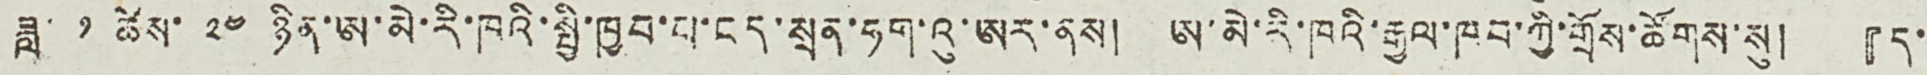ཟླ་ ༡ ཚེས་ ༢༤ ཉིན་ཨ་མེ་རི་ཁའི་སྤྱི་ཁྱབ་པ་ངད་སྲན་ཧག་འུ་ཨར་ནས། ཨ་མེ་རི་ཁའི་རྒྱལ་ཁབ་ཀྱི་གྲོས་ཚོགས་སུ། 『ད་
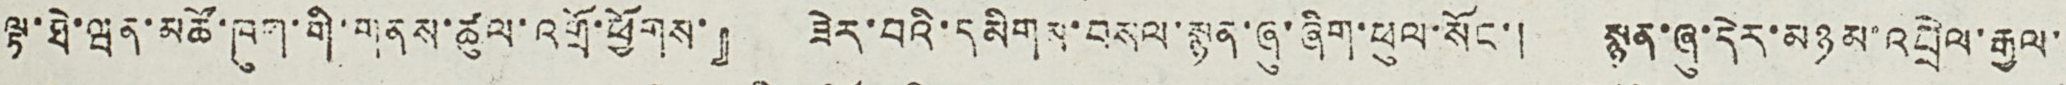ལྟ་ཐེ་ཝན་མཚོ་ཁུག་གི་གནས་ཚུལ་འགྲོ་ཕྱོགས་』 ཟེར་བའི་དམིགས་བསལ་སྙན་ཞུ་ཞིག་ཕུལ་སོང་། སྙན་ཞུ་དེར་མཉམ་འབྲེལ་རྒྱལ་
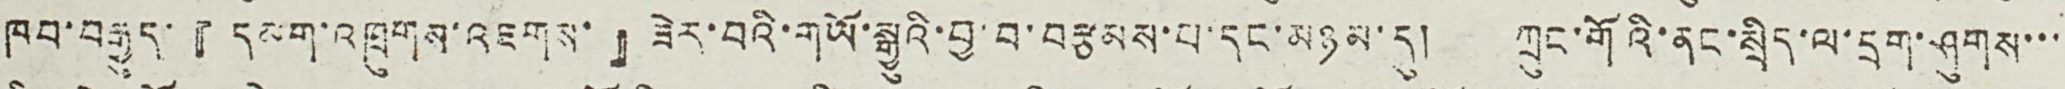ཁབ་བརྒྱུད་『དམག་འཁྲུགས་འཇགས་』ཟེར་བའི་གཡོ་སྒྱུའི་བྱ་བ་བརྩམས་པ་དང་མཉམ་དུ། ཀྲུང་གོའི་ནང་སྲིད་ལ་དྲག་ཤུགས་་་
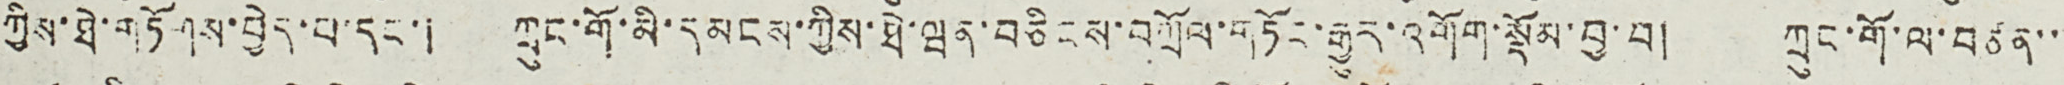ཀྱིས་ཐེ་གཏོགས་བྱེད་པ་དང་། ཀྲུང་གོ་མི་དམངས་ཀྱིས་ཐེ་ཝན་བཅིངས་བཀྲོལ་གཏོང་རྒྱུར་འགོག་སྡོམ་བྱ་བ། ཀྲུང་གོ་ལ་བཙན་་
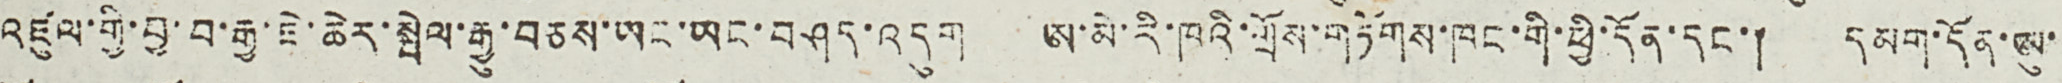འཛུལ་གྱི་བྱ་བ་རྒྱ་ཇེ་ཆེར་སྦེལ་རྒྱུ་བཅས་ཡང་ཡང་བཤད་འདུག ཨ་མེ་རི་ཁའི་གྲོས་གཏོགས་ཁང་གི་ཕྱི་དོན་དང་། དམག་དོན་ཨུ་
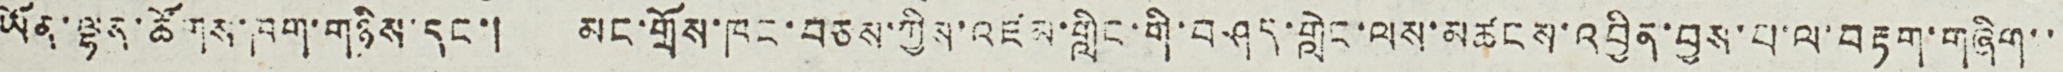ཡོན་ལྷན་ཚོགས་ཁག་གཉིས་དང་། མང་གྲོས་ཁང་བཅས་ཀྱིས་འཛམ་གླིང་གི་བཤད་གླེང་ལས་མཚངས་འབྱིན་བྱས་པ་ལ་བརྟག་གཞིག་་
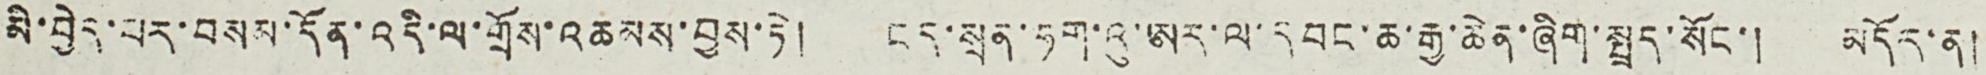མི་བྱེད་པར་བསམ་དོན་འདི་ལ་གྲོས་འཆམས་བྱས་ཏེ། ངད་སྲན་ཧག་འུ་ཨར་ལ་དབང་ཆ་རྒྱ་ཆེན་ཞིག་སྤྲད་སོང་། མདོར་ན།
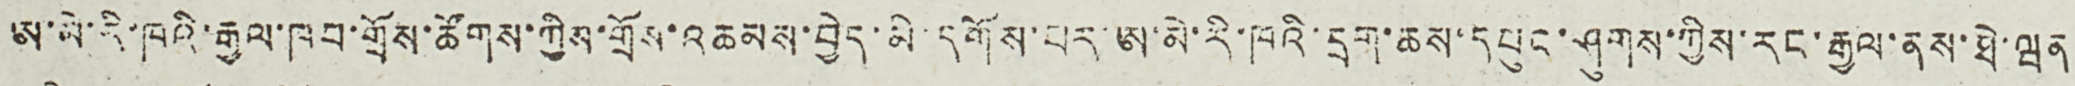ཨ་མེ་རི་ཁའི་རྒྱལ་ཁབ་གྲོས་ཚོགས་ཀྱིས་གྲོས་འཆམས་བྱེད་མི་དགོས་པར་ཨ་མེ་རི་ཁའི་དྲག་ཆས་དཔུང་ཤུགས་ཀྱིས་རང་རྒྱལ་ནས་ཐེ་ཝན
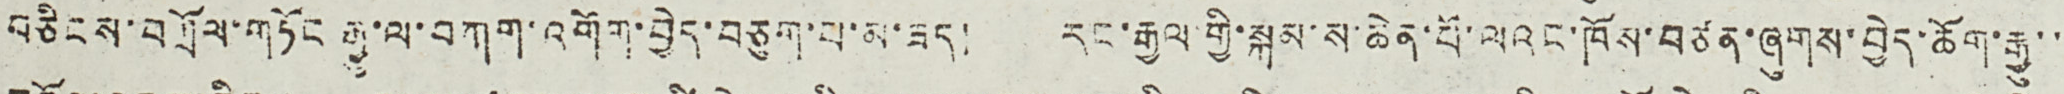བཅིངས་བཀྲོལ་གཏོང་རྒྱུ་ལ་བཀག་འགོག་བྱེད་བཅུག་པ་མ་ཟད། རང་རྒྱལ་གྱི་སྐམ་ས་ཆེན་པོ་ལའང་ཁོས་བཙན་ཞུགས་བྱེད་ཆོག་རྒྱུ་་
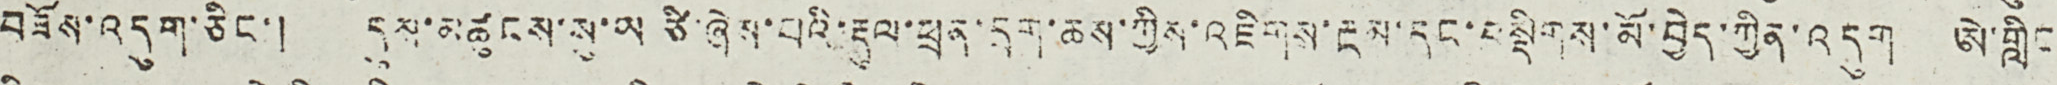བཟོས་འདུག་ཅིང་། དུས་མཚུངས་སུ་ཡ ཙི་ཞེས་པའི་རྡུལ་ཕྲན་དྲག་ཆས་ཀྱིས་འཇིགས་རྔམ་དང་བསྡིགས་མོ་བྱེད་ཀྱིན་འདུག ཨེ་གླིང
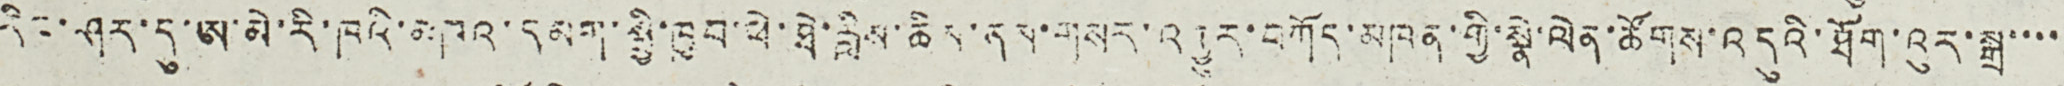རིང་ཤར་དུ་ཨ་མེ་རི་ཁའི་མཁའ་དམག་སྤྱི་ཁྱབ་ཕེ་ཐེ་རླིས་ཆིས་ནས་གསར་འགྱུར་བཀོད་མཁན་གྱི་སྣེ་ལེན་ཚོགས་འདུའི་ཐོག་འུར་སྒྲ་་་་
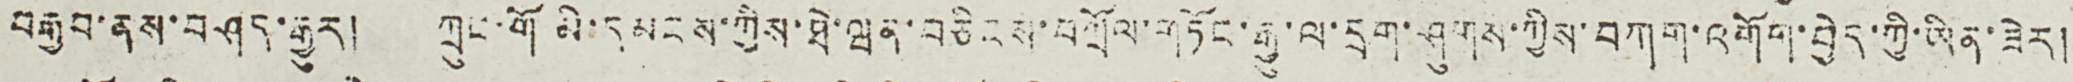བརྒྱབ་ནས་བཤད་རྒྱུར། ཀྲུང་གོ་མི་དམངས་ཀྱིས་ཐེ་ཝན་བཅིངས་བཀྲོལ་གཏོང་རྒྱུ་ལ་དྲག་ཤུགས་ཀྱིས་བཀག་འགོག་བྱེད་ཀྱི་ཡིན་ཟེར།
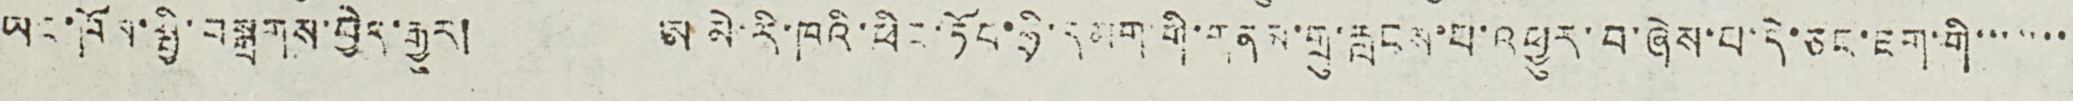ཡང་ཁོས་སྤྱི་བསྒྲགས་བྱེད་རྒྱུར། ཨ མེ་རི་ཁའི་ཕིབ་ཏོབ་ཧྲི་དམག་གི་གནས་གྲུ་རླངས་པ་འཕྱུར་བ་ཞེས་པ་དེ་ཅང་ཇག་གི་་་་་་་
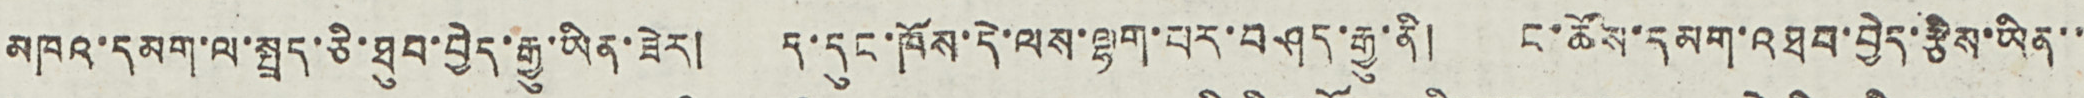མཁའ་དམག་ལ་སྤྲད་ཅི་ཐུབ་བྱེད་རྒྱུ་ཡོན་ཟེར། ད་དུང་ཁོས་དེ་ལས་ལྷག་པར་བཤད་རྒྱུ་ནི།  ང་ཚོས་དམག་འཐབ་བྱེད་རྩིས་ཡིན་་
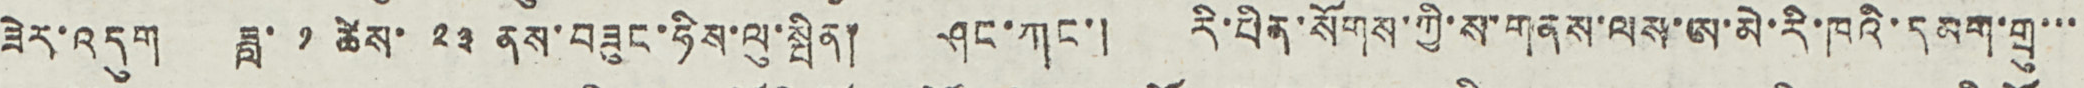ཟེར་འདུག ཟླ་ ༡ ཚེས་ ༢༣ ནས་བཟུང་ཧིས་ལུ་སྤིན། ཤང་ཀང་། རི་པིན་སོགས་ཀྱི་ས་གནས་ལས་ཨ་མེ་རི་ཁའི་དམག་གྲུ་་་
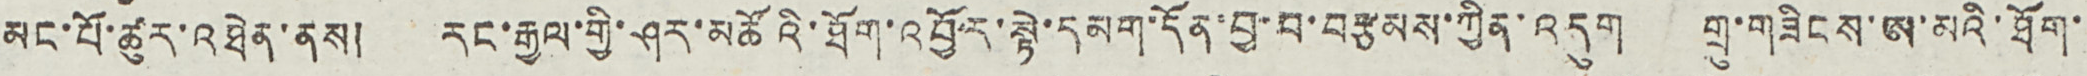མང་པོ་ཚུར་འཐེན་ནས། རང་རྒྱལ་གྱི་ཤར་མཚོའི་ཐོག་འབྱོར་སྟེ་དམག་དོན་བྱ་བ་བརྩམས་ཀྱིན་འདུག གྲུ་གཟིངས་ཨ་མའི་ཐོག་
